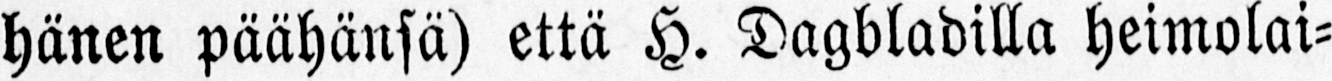hänen päähänsä) että H. Dagbladilla heimolai-
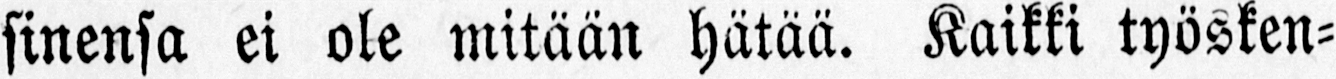sinensa ei ole mitään hätää. Kaikki työsken-
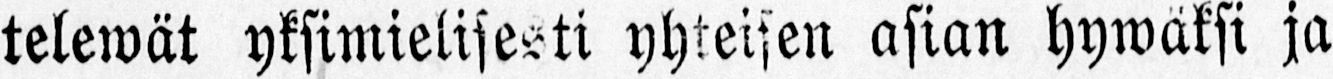telewät yksimielisesti yhteisen asian hywäksi ja
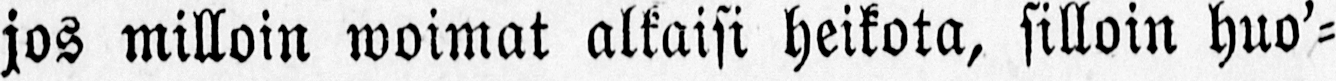jos milloin woimat alkaisi heikota, silloin huo’-
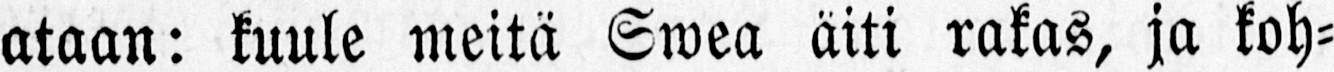ataan: kuule meitä Swea äiti rakas, ja koh-
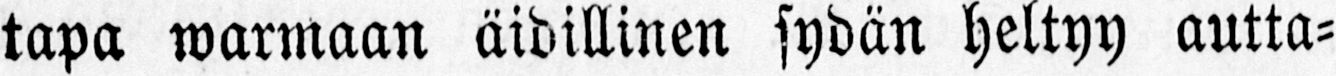tapa warmaan äidillinen sydän heltyy autta-
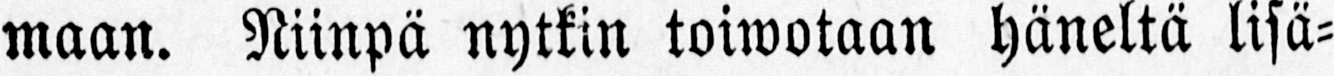maan. Niinpä nytkin toiwotaan häneltä lisä-
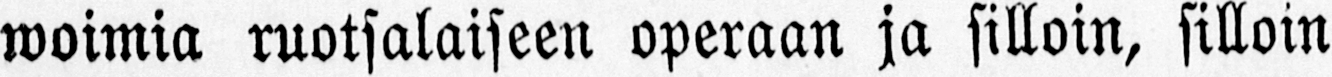woimia ruotsalaiseen operaan ja silloin, silloin
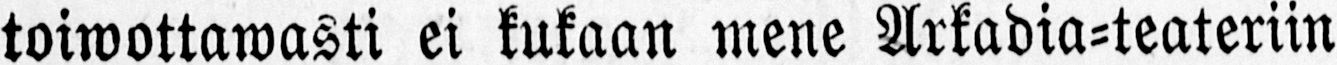toiwottawasti ei kukaan mene Arkadia-teateriin
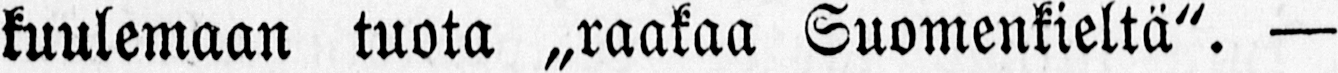kuulemaan tuota „raakaa Suomenkieliä". —
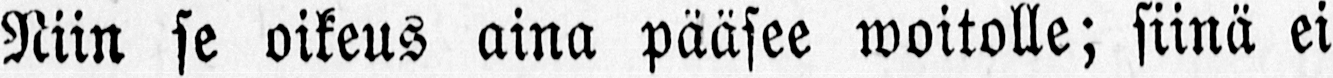Niin se oikeus aina pääsee woitolle; siinä ei
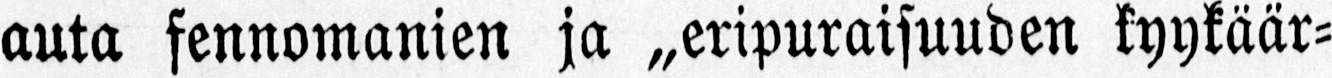auta fennomanien ja „eripuraisuuden kyykäär-
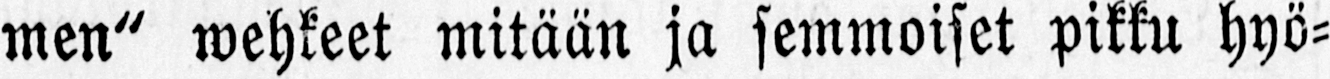men" wehkeet mitään ja semmoiset pikku hyö-
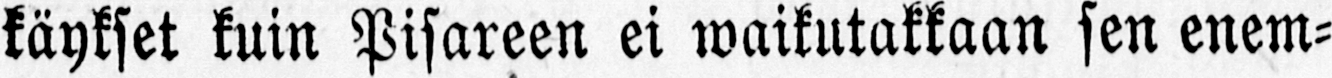käykset kuin Pisareen ei waikutakkaan sen enem-
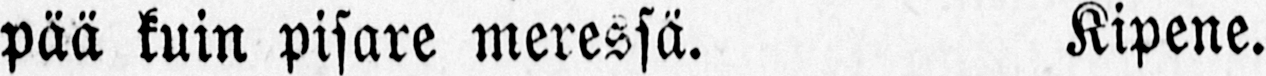pää kuin pisare meressä. Kipene.
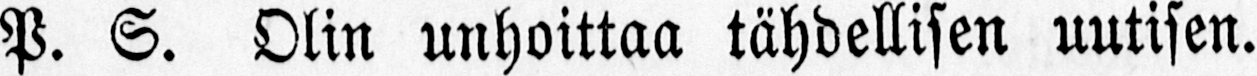P. S. Olin unhoittaa tähdellisen uutisen.
